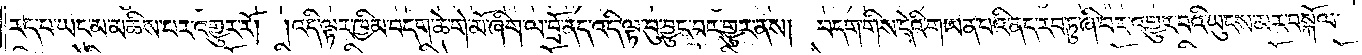རད་པ་ཡང་མ་མཆིས་པར་འགྱུར་རོ། །འདི་ལྟར་ཁྱིམ་བདག་ཆེ་གེ་མོ་ཞིག་ལ་བྲོ་ནད་འདི་ལྟ་བུ་བྱུང་བར་གྱུར་ནས། བདག་གིས་དེའི་གཡན་པའི་ནད་རབ་ཏུ་ཞི་བར་འགྱུར་བའི་ཡུངས་མར་བསྐོལ་
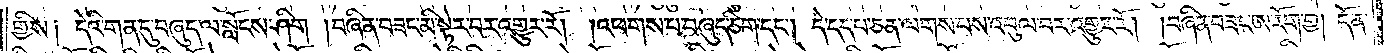གྱིས༑ དེའི་གན་དུ་བཞུད་ལ་སློངས་ཤིག །བཞིན་བཟང་མི་སྟེར་བར་འགྱུར་རོ། །འཕགས་པ་བཞུད་ཅིག་དང༌། དེ་དད་པ་ཅན་ལགས་པས་འབུལ་བར་འགྱུར་རོ། །བཞིན་བཟང་ཨ་རོག་གྱ། དོན་
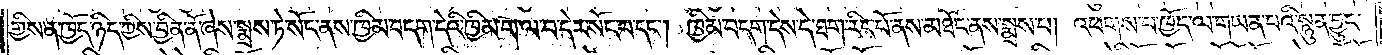གྱིས་ན་ཁྱོད་ཉིད་ཀྱིས་བྱིན་ནོ་ཞེས་སྨྲས་ཏེ་སོང་ནས་ཁྱིམ་བདག་དེའི་ཁྱིམ་ག་ལ་བ་དེར་སོང་བ་དང༌། ཁྱིམ་བདག་དེས་དེ་ཐག་རིང་པོ་ནས་མཐོང་ནས་སྨྲས་པ། འཕགས་པ་ཁྱོད་ལ་གཡན་པའི་སྙུན་བྱུང་
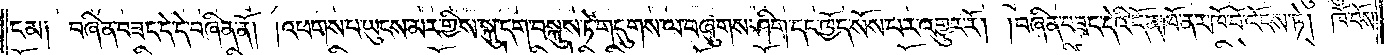ངམ༑ བཞིན་བཟང་དེ་དེ་བཞིན་ནོ། །འཕགས་པ་ཡུངས་མར་གྱིས་སྐུ་དག་བསྐུས་ཏེ་གདུགས་ལ་བཞུགས་ཤིག་དང་ཁྱོད་སོས་པར་འགྱུར་རོ། །བཞིན་བཟང་དེའི་དོན་ཁོ་ནར་ཁོ་བོ་འོངས་ཏེ། ཁོ་བོས་
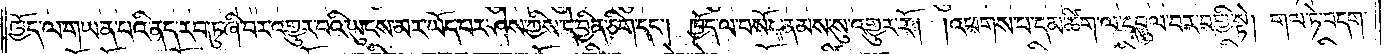ཁྱོད་ལ་གཡན་པའི་ནད་རབ་ཏུ་ཞི་བར་འགྱུར་བའི་ཡུངས་མར་ཡོད་པར་ཤེས་ཀྱིས་དེ་བྱིན་ཅིག་དང༌། ཁྱོད་ལ་བསོད་ནམས་སུ་འགྱུར་རོ། །འཕགས་པ་དམ་ཚིག་ལ་དབུལ་བར་བགྱི་སྟེ། གལ་ཏེ་བདག་
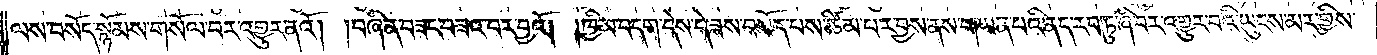ལས་བསོད་སྙོམས་གསོལ་བར་འགྱུར་ནའོ། །བཞིན་བཟང་བཟའ་བར་བྱའོ། །ཁྱིམ་བདག་དེས་དེ་ཟས་བསོད་པས་ཚིམ་པར་བྱས་ནས་གཡན་པའི་ནད་རབ་ཏུ་ཞི་བར་འགྱུར་བའི་ཡུངས་མར་གྱིས་
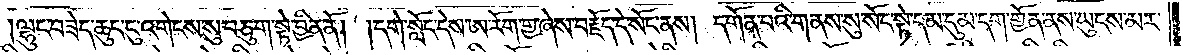ལྷུང་བཟེད་ཆུང་ངུ་འགེངས་སུ་བཅུག་སྟེ་བྱིན་ནོ། །དགེ་སློང་དེས་ཨ་རོག་གྱ་ཞེས་བརྗོད་དེ་སོང་ནས། དགོན་པའི་གནས་སུ་སོང་སྟེ་དམ་དུམ་དག་གྱོན་ནས་ཡུངས་མར་
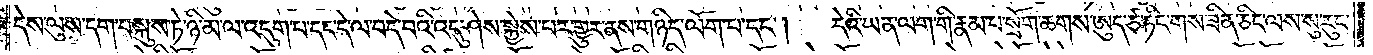དེས་ལུས་དག་བསྐུས་ཏེ་ཉི་མ་ལ་འདུག་པ་དང་དེ་ལ་བདེ་བའི་འདུ་ཤེས་སྐྱེས་པར་གྱུར་ནས་གཉིད་ལོག་པ་དང༌། དེའི་ཡན་ལག་གི་རྣམ་པ་སྲོག་ཆགས་ཨུད་ཙ་ཏིང་གས་ཟིན་ཅིང་ལས་སུ་རུང་
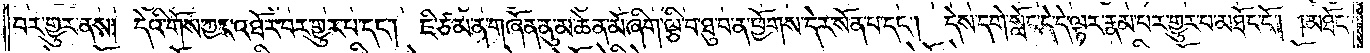བར་གྱུར་ནས། དེའི་གོས་ཀྱང་འཐོར་བར་གྱུར་པ་དང༌། ཇི་ཙམ་ན་གཞོན་ནུ་མ་ཆེན་མོ་ཞིག་ལྕི་བ་ཐུ་བ་ན་ཕྱོགས་དེར་སོན་པ་དང༌། དེས་དགེ་སློང་དེ་དེ་ལྟར་རྣམ་པར་གྱུར་པ་མཐོང་ངོ༌། །མཐོང་
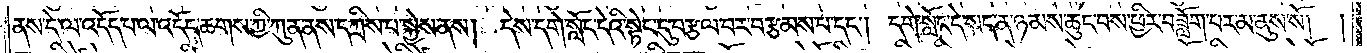ནས་དེ་ལ་འདོད་པ་ལ་འདོད་ཆགས་ཀྱི་ཀུན་ནས་དཀྲིས་པ་སྐྱེས་ནས། དེས་དགེ་སློང་དེའི་སྟེང་དུ་བརྩལ་བར་བརྩམས་པ་དང༌། དགེ་སློང་དེ་སད་ན་ཉམས་ཆུང་བས་ཕྱིར་བཟློག་པར་མ་ནུས་སོ། །
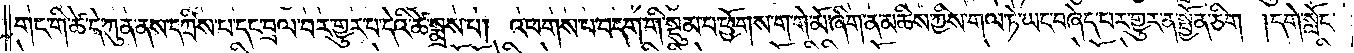གང་གི་ཚེ་དེ་ཀུན་ནས་དཀྲིས་པ་དང་བྲལ་བར་གྱུར་པ་དེའི་ཚེ་སྨྲས་པ། འཕགས་པ་བདག་གི་སྡུམ་བ་ཕྱོགས་ག་གེ་མོ་ཞིག་ན་མཆིས་ཀྱིས་གལ་ཏེ་ཡང་བཞེད་པར་གྱུར་ན་སྤྱོན་ཅིག །དགེ་སློང་
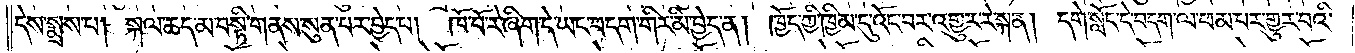དེས་སྨྲས་པ། སྐལ་ཆད་མ་བསྟི་གནས་སུན་པར་བྱེད་པ། ཁོ་བོ་རེ་ཞིག་དེ་ཡང་བདག་གིར་མི་བྱེད་ན། ཁྱོད་ཀྱི་ཁྱིམ་དུ་འོང་བར་འགྱུར་རེ་སྐན། དགེ་སློང་དེ་བདག་ལ་ཕམ་པར་གྱུར་བའི་
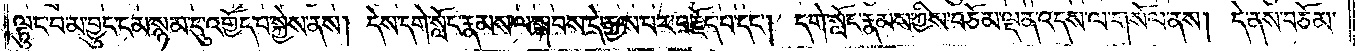ལྟུང་བ་མ་བྱུང་ངམ་སྙམ་དུ་འགྱོད་པ་སྐྱེས་ནས། དེས་དགེ་སློང་རྣམས་ལ་སྐབས་དེ་རྒྱས་པར་བརྗོད་པ་དང༌། དགེ་སློང་རྣམས་ཀྱིས་བཅོམ་ལྡན་འདས་ལ་གསོལ་ནས། དེ་ནས་བཅོམ་
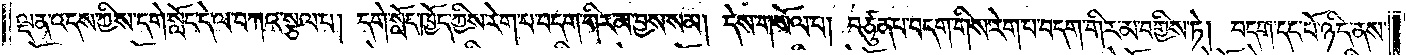ལྡན་འདས་ཀྱིས་དགེ་སློང་དེ་ལ་བཀའ་སྩལ་པ། དགེ་སློང་ཁྱོད་ཀྱིས་རེག་པ་བདག་གིར་མ་བྱས་སམ། དེས་གསོལ་པ། བཙུན་པ་བདག་གིས་རེག་པ་བདག་གིར་མ་བགྱིས་ཏེ། བདག་དང་པོ་ཉིད་ནས་
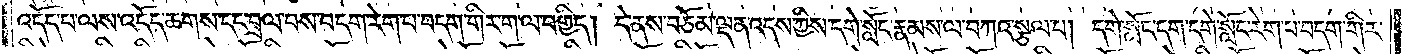འདོད་པ་ལས་འདོད་ཆགས་དང་བྲལ་བས་བདག་རེག་པ་བདག་གིར་ག་ལ་བགྱིད། དེ་ནས་བཅོམ་ལྡན་འདས་ཀྱིས་དགེ་སློང་རྣམས་ལ་བཀའ་སྩལ་པ། དགེ་སློང་དག་དགེ་སློང་རེག་པ་བདག་གིར་
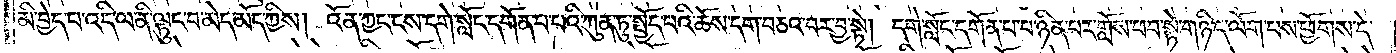མི་བྱེད་པ་འདི་ལ་ནི་ལྟུང་བ་མེད་མོད་ཀྱིས། འོན་ཀྱང་ངས་དགེ་སློང་དགོན་པ་པའི་ཀུན་ཏུ་སྤྱོད་པའི་ཆོས་དག་བཅའ་བར་བྱ་སྟེ། དགེ་སློང་དགོན་པ་པ་ཉིན་པར་གློས་ཕབ་སྟེ་གཉིད་ལོག་པས་ཕྱོགས་དེ་
